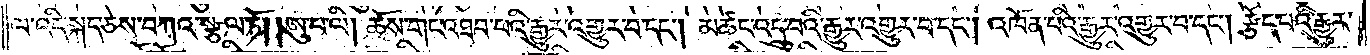ལ་འདི་སྐད་ཅེས་བཀའ་སྩལ་ཏོ། །ཨུ་པ་ལི། ཆོས་གང་འཐབ་པའི་རྒྱུར་འགྱུར་པ་དང༌། མཚང་འདྲུ་བའི་རྒྱུར་འགྱུར་བ་དང༌། འཁོན་པའི་རྒྱུར་འགྱུར་བ་དང༌། རྩོད་པའི་རྒྱུར་
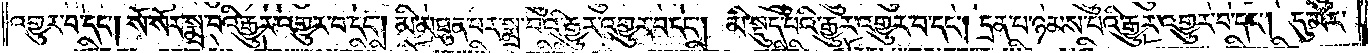འགྱུར་བ་དང༌། སོ་སོར་སྨྲ་བའི་རྒྱུར་འགྱུར་བ་དང༌། མི་མཐུན་པར་སྨྲ་བའི་རྒྱུར་འགྱུར་བ་དང༌། མི་སྡུད་པའི་རྒྱུར་འགྱུར་བ་དང༌། དྲན་པ་ཉམས་པའི་རྒྱུར་འགྱུར་བ་དང༌། དུ་མར་
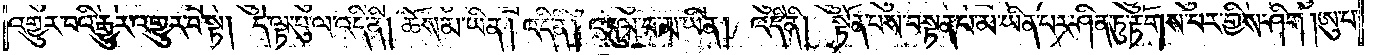འགྱུར་བའི་རྒྱུར་འགྱུར་བ་སྟེ། དེ་ལྟ་བུ་ལ་འདི་ནི། ཆོས་མ་ཡིན། འདི་ནི། འདུལ་བ་མ་ཡིན། འདི་ནི། སྟོན་པས་བསྟན་པ་མ་ཡིན་པར་ཤིན་ཏུ་རྟོགས་པར་གྱིས་ཤིག །ཨུ་པ་
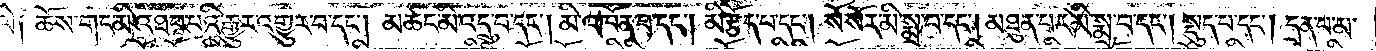ལི༑ ཆོས་གང་མི་འཐབ་པའི་རྒྱུར་འགྱུར་བ་དང༌། མཚང་མི་འདྲུ་བ་དང༌། མི་འཁོན་པ་དང༌། མི་རྩོད་པ་དང༌། སོ་སོར་མི་སྨྲ་བ་དང༌། མཐུན་པར་མི་སྨྲ་བ་དང༌། སྡུད་པ་དང༌། དྲན་པ་མ་
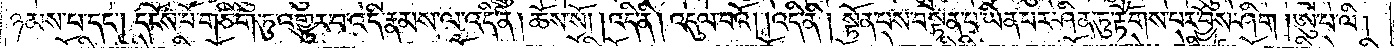ཉམས་པ་དང༌། དངོས་པོ་གཅིག་ཏུ་འགྱུར་བ་འདི་རྣམས་ལ་འདི་ནི། ཆོས་སོ། །འདི་ནི། འདུལ་བའོ། །འདི་ནི། སྟོན་པས་བསྟན་པ་ཡིན་པར་ཤིན་ཏུ་རྟོགས་པར་བྱོས་ཤིག །ཨུ་པ་ལི།
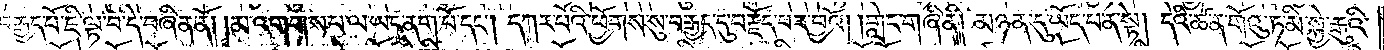བརྒྱད་པོ་ཇི་ལྟ་བ་དེ་བཞིན་ནོ། །མ་འགགས་པ་ལ་ཡང་ནག་པོ་དང༌། དཀར་པོའི་ཕྱོགས་སུ་བརྒྱད་དུ་བརྗོད་པར་བྱའོ། །གླེང་གཞི་ནི། མཉན་དུ་ཡོད་པ་ན་སྟེ། དེའི་ཚན་གོའུ་ཏ་མི་སྐྱེ་རྒུའི་
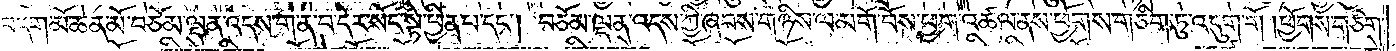བདག་མོ་ཆེན་མོ་བཅོམ་ལྡན་འདས་ག་ན་བ་དེར་སོང་སྟེ་ཕྱིན་པ་དང༌། བཅོམ་ལྡན་འདས་ཀྱི་ཞབས་གཉིས་ལ་མགོ་བོས་ཕྱག་འཚལ་ནས་ཕྱོགས་གཅིག་ཏུ་འདུག་གོ །ཕྱོགས་གཅིག་
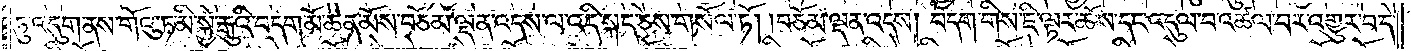ཏུ་འདུག་ནས་གོའུ་ཏ་མི་སྐྱེ་རྒུའི་བདག་མོ་ཆེན་མོས་བཅོམ་ལྡན་འདས་ལ་འདི་སྐད་ཅེས་གསོལ་ཏོ། །བཅོམ་ལྡན་འདས། བདག་གིས་ཇི་ལྟར་ཆོས་དང་འདུལ་བ་འཚལ་བར་འགྱུར་བ་དེ་
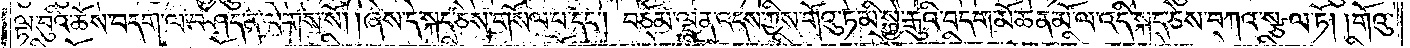ལྟ་བུའི་ཆོས་བདག་ལ་བཤད་ན་ལེགས་སོ། །ཞེས་དེ་སྐད་ཅེས་གསོལ་པ་དང༌། བཅོམ་ལྡན་འདས་ཀྱིས་གོའུ་ཏ་མི་སྐྱེ་རྒུའི་བདག་མོ་ཆེན་མོ་ལ་འདི་སྐད་ཅེས་བཀའ་སྩལ་ཏོ། །གོའུ་
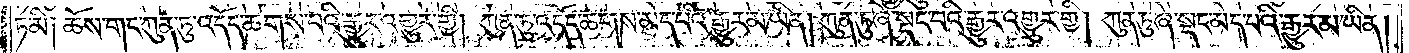ཏ་མི༑ ཆོས་གང་ཀུན་ཏུ་འདོད་ཆགས་པའི་རྒྱུར་འགྱུར་གྱི། ཀུན་ཏུ་འདོད་ཆགས་མེད་པའི་རྒྱུར་མ་ཡིན། ཀུན་ཏུ་ཞེ་སྡང་བའི་རྒྱུར་འགྱུར་གྱི། ཀུན་ཏུ་ཞེ་སྡང་མེད་པའི་རྒྱུར་མ་ཡིན།
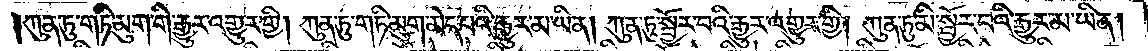ཀུན་ཏུ་གཏི་མུག་གི་རྒྱུར་འགྱུར་གྱི། ཀུན་ཏུ་གཏི་མུག་མེད་པའི་རྒྱུར་མ་ཡིན། ཀུན་ཏུ་སྦྱོར་བའི་རྒྱུར་འགྱུར་གྱི། ཀུན་ཏུ་མི་སྦྱོར་བའི་རྒྱུར་མ་ཡིན།
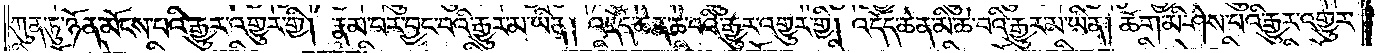ཀུན་ཏུ་ཉོན་མོངས་པའི་རྒྱུར་འགྱུར་གྱི། རྣམ་པར་བྱང་བའི་རྒྱུར་མ་ཡིན། འདོད་ཆེན་ཆེ་བའི་རྒྱུར་འགྱུར་གྱི། འདོད་ཆེན་མི་ཆེ་བའི་རྒྱུར་མ་ཡིན། ཆོག་མི་ཤེས་པའི་རྒྱུར་འགྱུར་
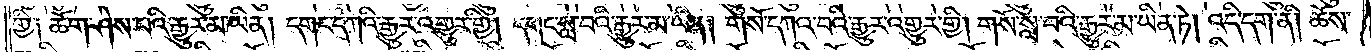གྱི༑ ཆོག་ཤེས་པའི་རྒྱུར་མ་ཡིན། དགང་དཀའི་རྒྱུར་འགྱུར་གྱི། དགང་སླ་བའི་རྒྱུར་མ་ཡིན། གསོ་དཀའ་བའི་རྒྱུར་འགྱུར་གྱི། གསོ་སླ་བའི་རྒྱུར་མ་ཡིན་ཏེ། འདི་དག་ནི། ཆོས་
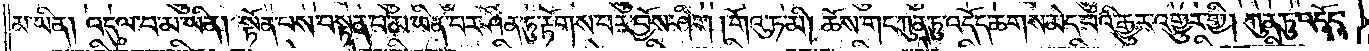མ་ཡིན། འདུལ་བ་མ་ཡིན། སྟོན་པས་བསྟན་པ་མ་ཡིན་པར་ཤིན་ཏུ་རྟོགས་པར་བྱོས་ཤིག །གོའུ་ཏ་མི། ཆོས་གང་ཀུན་ཏུ་འདོད་ཆགས་མེད་པའི་རྒྱུར་འགྱུར་གྱི། ཀུན་ཏུ་འདོད་
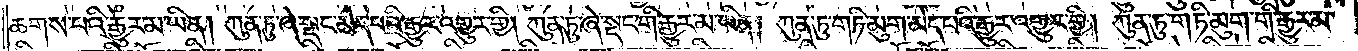ཆགས་པའི་རྒྱུར་མ་ཡིན། ཀུན་ཏུ་ཞེ་སྡང་མེད་པའི་རྒྱུར་འགྱུར་གྱི། ཀུན་ཏུ་ཞེ་སྡང་གི་རྒྱུར་མ་ཡིན། ཀུན་ཏུ་གཏི་མུག་མེད་པའི་རྒྱུར་འགྱུར་གྱི། ཀུན་ཏུ་གཏི་མུག་གི་རྒྱུར་མ་
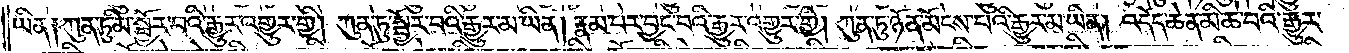ཡིན༑ ཀུན་ཏུ་མི་སྦྱོར་བའི་རྒྱུར་འགྱུར་གྱི། ཀུན་ཏུ་སྦྱོར་བའི་རྒྱུར་མ་ཡིན། རྣམ་པར་བྱང་བའི་རྒྱུར་འགྱུར་གྱི། ཀུན་ཏུ་ཉོན་མོངས་པའི་རྒྱུར་མ་ཡིན། འདོད་ཆེན་མི་ཆེ་བའི་རྒྱུར་
